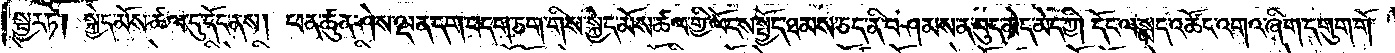སྦྱར་ཏེ། སྐྱེད་མོས་ཚལ་དུ་དོང་ནས། ཕན་ཚུན་ཤེས་ལྡན་དག་བདག་ཅག་གིས་སྐྱེད་མོས་ཚལ་གྱི་ལོངས་སྤྱོད་ཐམས་ཅད་ནི་བཤམས་ན་བུད་མེད་མེད་ཀྱི། དོང་ལ་སྨད་འཚོང་འགའ་ཞིག་དགུག་གོ་
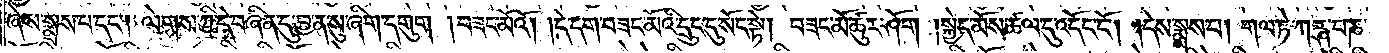ཞེས་སྨྲས་པ་དང༌། ལེགས་ཀྱི་དེ་བཞིན་དུ་བྱ་ན་སུ་ཞིག་དགུག །བཟང་མོའོ། །དེ་དག་བཟང་མོའི་དྲུང་དུ་སོང་སྟེ། བཟང་མོ་ཚུར་ཤོག །སྐྱེད་མོས་ཚལ་དུ་འདོང་ངོ༌། །དེས་སྨྲས་པ། གལ་ཏེ་ཀཪྴ་པ་ཎ་
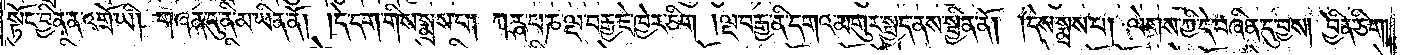སྟོང་བྱིན་ན་འགྲོ་ཡི། གཞན་དུ་ནི་མ་ཡིན་ནོ། །དེ་དག་གིས་སྨྲས་པ། ཀཪྴ་པ་ཎ་ལྔ་བརྒྱ་ཇེ་ཁྱེར་ཅིག །ལྔ་བརྒྱ་ནི་དགའ་མགུར་སྤྱད་ནས་སྦྱིན་ནོ། །དེས་སྨྲས་པ། ལེགས་ཀྱི་དེ་བཞིན་དུ་བྱས། བྱིན་ཅིག །
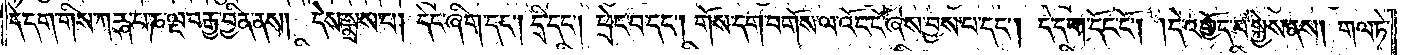དེ་དག་གིས་ཀཪྴ་པ་ཎ་ལྔ་བརྒྱ་བྱིན་ནས། དེས་སྨྲས་པ། དེང་ཞིག་དང༌། དྲི་དང༌། ཕྲེང་བ་དང༌། གོས་དག་བགོས་ལ་འོང་ངོ་ཞེས་བྱས་པ་དང༌། དེ་དག་དོང་ངོ༌། །དེ་འགྱོད་པ་སྐྱེས་ནས། གལ་ཏེ་
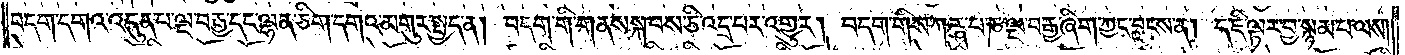བདག་དགའ་འདུན་པ་ལྔ་བརྒྱ་དང་ལྷན་ཅིག་དགའ་མགུར་སྤྱད་ན། བདག་གི་གནས་སྐབས་ཅི་འདྲ་བར་འགྱུར། བདག་གིས་ཀཪྴ་པ་ཎ་ལྔ་བརྒྱ་ཞིག་ཀྱང་བླངས་ན། ད་ཇི་ལྟར་བྱ་སྙམ་པ་ལས།
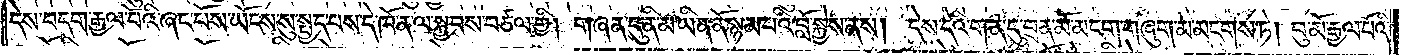དེས་བདག་རྒྱལ་པོའི་ཞང་པོས་ཡོངས་སུ་སྤྱད་པས་དེ་ཁོ་ན་ལ་སྐྱབས་བཙལ་གྱི། གཞན་དུ་ནི་མ་ཡིན་ནོ་སྙམ་པའི་བློ་སྐྱེས་ནས། དེས་དེའི་གན་དུ་བྲན་མོ་མངག་གཞུག་མ་མངགས་ཏེ། བུ་མོ་རྒྱལ་པོའི་
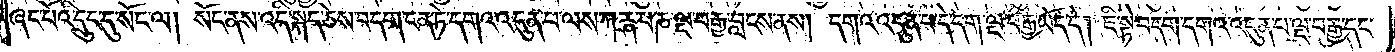ཞང་པོའི་དྲུང་དུ་སོང་ལ། སོང་ནས་འདི་སྐད་ཅེས་བདག་ངན་ཏེ་དགའ་འདུན་པ་ལས་ཀཪྴ་པ་ཎ་ལྔ་བརྒྱ་བླངས་ན། དགའ་འདུན་པ་དེ་དག་ལྔ་བརྒྱ་ཡོད་དེ། ཇི་སྟེ་བདག་དགའ་འདུན་པ་ལྔ་བརྒྱ་དང་
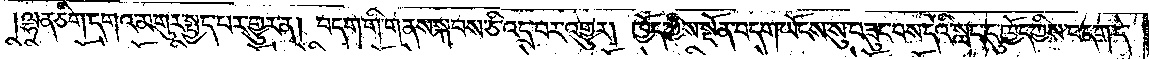ལྷན་ཅིག་དགའ་མགུར་སྤྱད་པར་གྱུར་ན། བདག་གི་གནས་སྐབས་ཅི་འདྲ་བར་འགྱུར། ཁྱོད་ཀྱིས་སྔོན་བདག་ཡོངས་སུ་བཟུང་བས་དེའི་སླད་དུ་ཁྱོད་ཀྱིས་བདག་དེ་
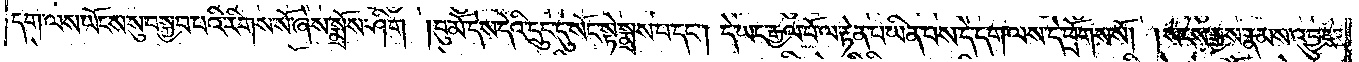དག་ལས་ཡོངས་སུ་བསྐྱབ་པའི་རིགས་སོ་ཞེས་སྨྲོས་ཤིག །བུ་མོ་དེས་དེའི་དྲུང་དུ་སོང་སྟེ་སྨྲས་པ་དང༌། དེ་ཡང་རྒྱལ་པོ་ལ་རྟེན་པ་ཡིན་པས་དེ་དག་ལས་དེ་ཕྲོགས་སོ། །སངས་རྒྱས་རྣམས་འབྱུང་
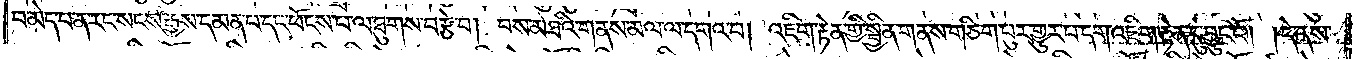བ་མེད་པ་ན་རང་སངས་རྒྱས་དམན་པ་དང་ཕོངས་པ་ལ་ཐུགས་བརྩེ་བ། བས་མཐའི་གནས་མལ་ལ་དགའ་བ། འཇིག་རྟེན་གྱི་སྦྱིན་གནས་གཅིག་པུར་གྱུར་པ་དག་འཇིག་རྟེན་དུ་བྱུང་ངོ༌། །དེ་ནས་
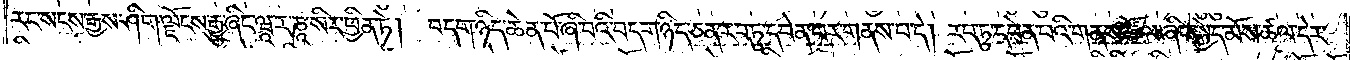རང་སངས་རྒྱས་ཤིག་ལྗོངས་རྒྱུ་ཞིང་ཝཱ་ར་ཎཱ་སིར་ཕྱིན་ཏེ། བདག་ཉིད་ཆེན་པོ་ཞི་བའི་བདག་ཉིད་ཅན་རབ་ཏུ་དབེན་པར་གནས་པ་དེ། རབ་ཏུ་དབེན་པའི་གནས་ཚོལ་ཞིང་སྐྱེད་མོས་ཚལ་དེར་
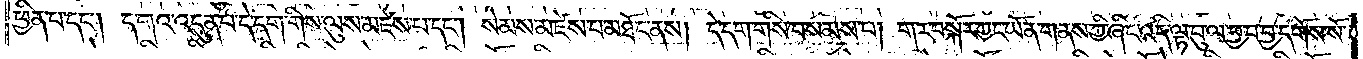ཕྱིན་པ་དང༌། དགའ་འདུན་པ་དེ་དག་གིས་ལུས་མཛེས་པ་དང༌། སེམས་མཛེས་པ་མཐོང་ནས། དེ་དག་གིས་བསམས་པ། གར་བསྐོར་ཀྱང་ཡོན་གནས་ཀྱི་ཞིང་འདི་ལྟ་བུ་ལ་བྱ་བ་བྱ་དགོས་སོ་
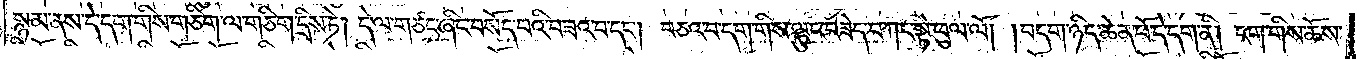སྙམ་ནས་དེ་དག་གིས་གཅིག་ལ་གཅིག་དྲིས་ཏེ། དེ་ལ་གཙང་ཞིང་བསོད་པའི་བཟའ་བ་དང༌། བཅའ་བ་དག་གིས་ལྷུང་བཟེད་བཀང་སྟེ་ཕུལ་ལོ། །བདག་ཉིད་ཆེན་པོ་དེ་དག་ནི། །དག་གིས་ཆོས་
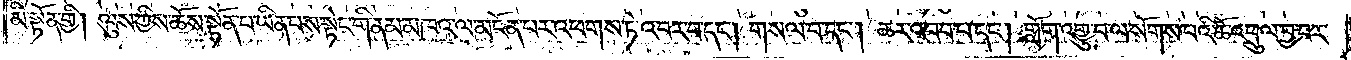མི་སྟོན་གྱི། ལུས་ཀྱིས་ཆོས་སྟོན་པ་ཡིན་པས་སྟེང་གི་ནམ་མཁའ་ལ་མངོན་པར་འཕགས་ཏེ་འབར་བ་དང༌། གསལ་བ་དང༌། ཆར་འབབ་པ་དང༌། གློག་འགྱུ་བ་ལ་སོགས་པའི་ཆོ་འཕྲུལ་བྱ་བར་
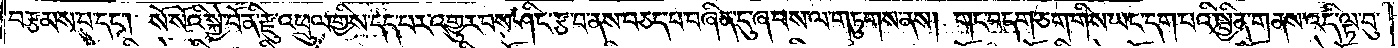བརྩམས་པ་དང༌། སོ་སོའི་སྐྱེ་བོ་ནི་རྫུ་འཕྲུལ་གྱིས་དད་པར་འགྱུར་བས་ཤིང་རྩ་བ་ནས་བཅད་པ་བཞིན་དུ་ཞབས་ལ་གཏུགས་ནས། གང་བདག་ཅག་གིས་ཡང་དག་པའི་སྦྱིན་གནས་འདི་ལྟ་བུ་
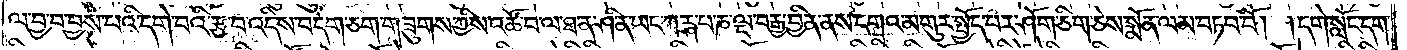ལ་བྱ་བ་བྱས་པའི་དགེ་བའི་རྩ་བ་འདིས་བདག་ཅག་གཟུགས་ཀྱིས་འཚོ་བ་ལ་ཐ་ན་ཤི་ན་ཡང་ཀཪྴ་པ་ཎ་ལྔ་བརྒྱ་བྱིན་ནས་དགའ་མགུར་སྤྱོད་པར་ཤོག་ཅིག་ཅེས་སྨོན་ལམ་བཏབ་བོ། །དགེ་སློང་དག་
